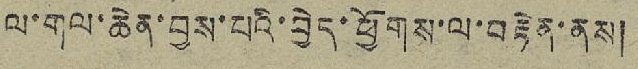ལ་གལ་ཆེན་བྱས་པའི་བྱེད་ཕྱོགས་ལ་བརྟེན་ནས།
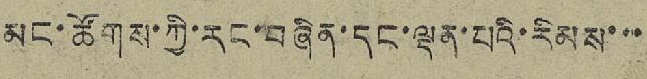མང་ཚོགས་ཀྱི་རང་བཞིན་དང་ལྡན་པའི་རིམས་་་
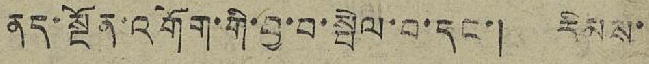ནད་སྔོན་འགོག་གི་བྱ་བ་སྦེལ་བ་དང་། རིམས་
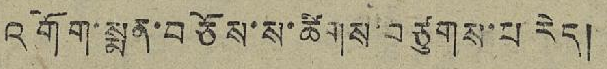འགོག་སྨན་བཅོས་ས་ཚིགས་བཙུགས་པ་རེད།
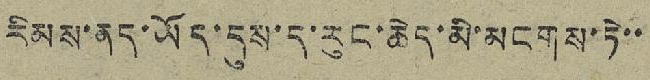རིམས་ནད་ཡོད་དུས་ད་རུང་ཆེད་མི་མངགས་ཏེ་་
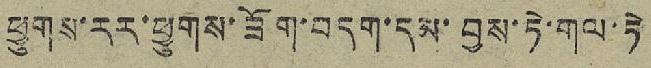ཕྱུགས་རར་ཕྱུགས་ཟོག་བདག་དམ་བྱས་ཏེ་གལ་ཏེ
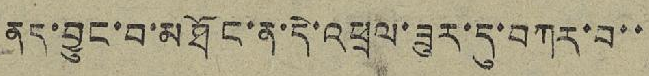ནད་བྱུང་བ་མཐོང་ན་དེ་འཕྲལ་ཟུར་དུ་བཀར་བ་་
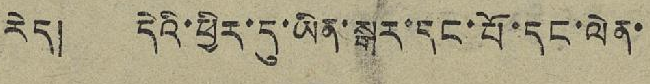རེད། དེའི་ཕྱིར་དུ་ཡིན་སྒར་དང་པོ་དང་ལེན་
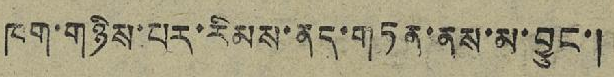ཁག་གཉིས་པར་རིམས་ནད་གཏན་ནས་མ་བྱུང་།
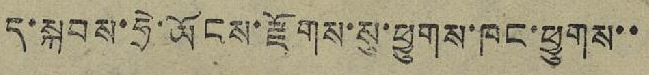ད་སྐབས་ཧྲེ་ཡོངས་རྫོགས་སུ་ཕྱུགས་ཁང་ཕྱུགས་་
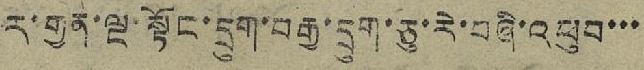ར་གྱན་ལྔ་སྟོང་དྲུག་བརྒྱ་དྲུག་ཅུ་རེ་བཞི་འཕུབ་་་
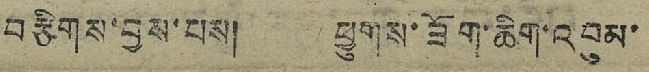བརྩིགས་བྱས་པས། ཕྱུགས་ཟོག་ཆིག་འབུམ་
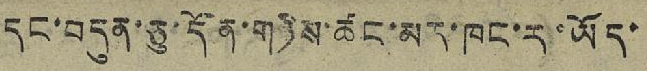དང་བདུན་ཅུ་དོན་གཉིས་ཚང་མར་ཁང་ར་ཡོད་
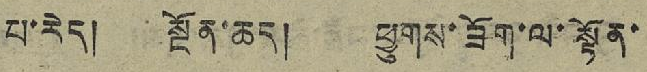པ་རེད། སྔོན་ཆད། ཕྱུགས་ཟོག་ལ་སྟོན་
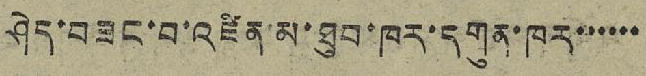ཤེད་བཟང་བ་འཛིན་མ་ཐུབ་ཁར་དགུན་ཁར་་་་་་
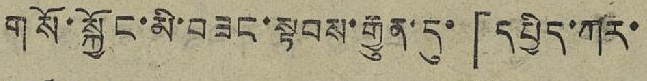གསོ་སྐྱོང་མི་བཟང་སྟབས་རྒྱུན་དུ་「དཔྱིད་ཀར་
